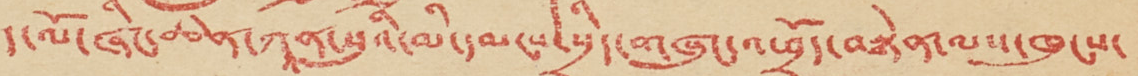ད་ལོ་ཞིང་ཆེན་ཀཱན་སུའི་མི་དམངས་སྲིད་གཞུང་འཕྲོད་བརྟེན་ལས་ཁུངས་
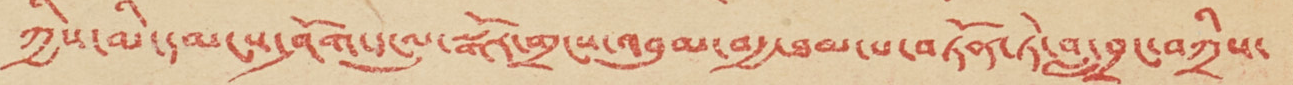ཀྱིས་མི་དམངས་ཤོག་དངུལ་སྒོར་གྲངས་འབུམ་བརྒྱ་ཐམ་པ་བཏོན་ཏེ་བླ་བྲང་བཀྲིས་
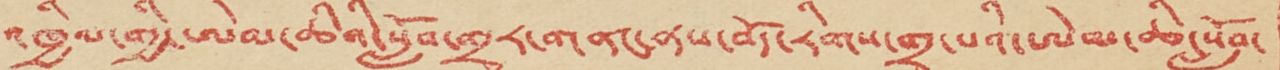འཁྱིལ་གྱི་ཨེམ་ཆིའི་སློབ་གྲྭར་གནང་ནས་བོད་རིགས་གྲྭ་པའི་ཨེམ་ཆི་སློབ་
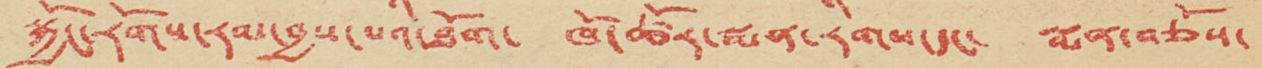སྐྱོང་རོགས་རམ་བྱས་པའི་ཐོག་ ཁོ་ཚོར་སྨན་རིགས་དང་ སྨན་བཅོས་
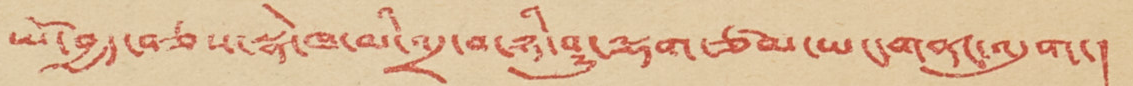ཡོ་བྱད་བཅས་སྣེ་ཁ་མི་འདྲ་བ་ཉི་ཤུ་ལྷག་ཙམ་ཡང་གནང་འདུག་།
